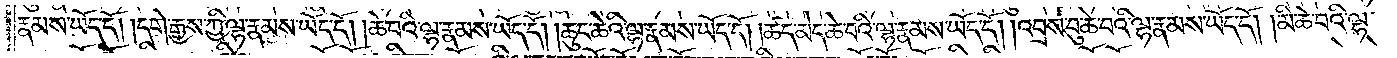རྣམས་ཡོད་དོ། །དགེ་རྒྱས་ཀྱི་ལྷ་རྣམས་ཡོད་དོ། །ཆེ་བའི་ལྷ་རྣམས་ཡོད་དོ། །ཆུང་ཆེའི་ལྷ་རྣམས་ཡོད་དོ། །ཚད་མེད་ཆེ་བའི་ལྷ་རྣམས་ཡོད་དོ། །འབྲས་བུ་ཆེ་བའི་ལྷ་རྣམས་ཡོད་དོ། །མི་ཆེ་བའི་ལྷ་
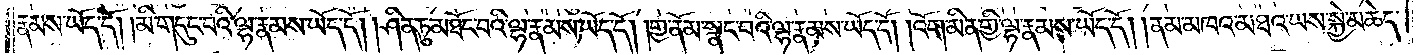རྣམས་ཡོད་དོ། །མི་གདུང་བའི་ལྷ་རྣམས་ཡོད་དོ། །ཤིན་ཏུ་མཐོང་བའི་ལྷ་རྣམས་ཡོད་དོ། །གྱ་ནོམ་སྣང་བའི་ལྷ་རྣམས་ཡོད་དོ། །འོག་མིན་གྱི་ལྷ་རྣམས་ཡོད་དོ། །ནམ་མཁའ་མཐའ་ཡས་སྐྱེ་མཆེད་
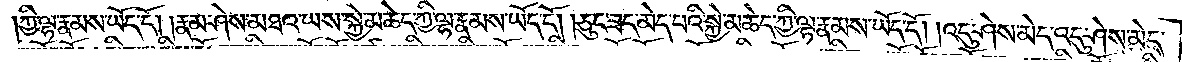ཀྱི་ལྷ་རྣམས་ཡོད་དོ། །རྣམ་ཤེས་མཐའ་ཡས་སྐྱེ་མཆེད་ཀྱི་ལྷ་རྣམས་ཡོད་དོ། །ཅུང་ཟད་མེད་པའི་སྐྱེ་མཆེད་ཀྱི་ལྷ་རྣམས་ཡོད་དོ། །འདུ་ཤེས་མེད་འདུ་ཤེས་མེད་
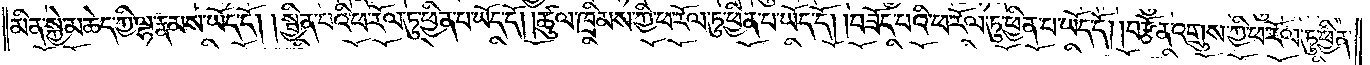མིན་སྐྱེ་མཆེད་ཀྱི་ལྷ་རྣམས་ཡོད་དོ། །སྦྱིན་པའི་ཕ་རོལ་ཏུ་ཕྱིན་པ་ཡོད་དོ། །ཚུལ་ཁྲིམས་ཀྱི་ཕ་རོལ་ཏུ་ཕྱིན་པ་ཡོད་དོ། །བཟོད་པའི་ཕ་རོལ་ཏུ་ཕྱིན་པ་ཡོད་དོ། །བརྩོན་འགྲུས་ཀྱི་ཕ་རོལ་ཏུ་ཕྱིན་
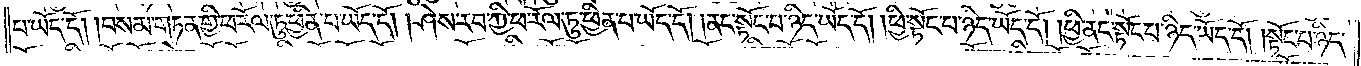པ་ཡོད་དོ། །བསམ་གཏན་གྱི་ཕ་རོལ་ཏུ་ཕྱིན་པ་ཡོད་དོ། །ཤེས་རབ་ཀྱི་ཕ་རོལ་ཏུ་ཕྱིན་པ་ཡོད་དོ། །ནང་སྟོང་པ་ཉིད་ཡོད་དོ། །ཕྱི་སྟོང་པ་ཉིད་ཡོད་དོ། །ཕྱི་ནང་སྟོང་པ་ཉིད་ཡོད་དོ། །སྟོང་པ་ཉིད་
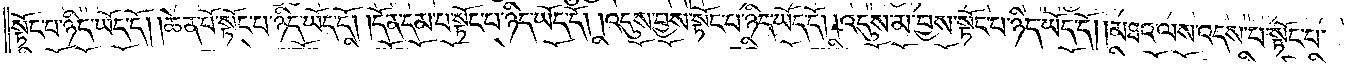སྟོང་པ་ཉིད་ཡོད་དོ། །ཆེན་པོ་སྟོང་པ་ཉིད་ཡོད་དོ། །དོན་དམ་པ་སྟོང་པ་ཉིད་ཡོད་དོ། །འདུས་བྱས་སྟོང་པ་ཉིད་ཡོད་དོ། །འདུས་མ་བྱས་སྟོང་པ་ཉིད་ཡོད་དོ། །མཐའ་ལས་འདས་པ་སྟོང་པ་
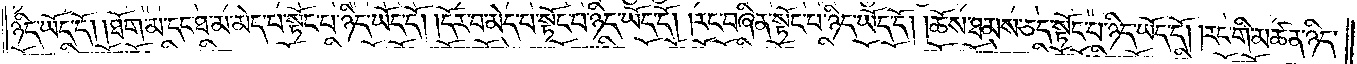ཉིད་ཡོད་དོ། །ཐོག་མ་དང་ཐ་མ་མེད་པ་སྟོང་པ་ཉིད་ཡོད་དོ། །དོར་བ་མེད་པ་སྟོང་པ་ཉིད་ཡོད་དོ། །རང་བཞིན་སྟོང་པ་ཉིད་ཡོད་དོ། །ཆོས་ཐམས་ཅད་སྟོང་པ་ཉིད་ཡོད་དོ། །རང་གི་མཚན་ཉིད་
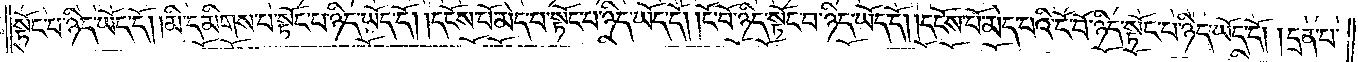སྟོང་པ་ཉིད་ཡོད་དོ། །མི་དམིགས་པ་སྟོང་པ་ཉིད་ཡོད་དོ། །དངོས་པོ་མེད་པ་སྟོང་པ་ཉིད་ཡོད་དོ། །ངོ་བོ་ཉིད་སྟོང་པ་ཉིད་ཡོད་དོ། །དངོས་པོ་མེད་པའི་ངོ་བོ་ཉིད་སྟོང་པ་ཉིད་ཡོད་དོ། །དྲན་པ་
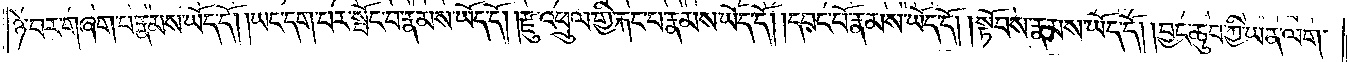ཉེ་བར་གཞག་པ་རྣམས་ཡོད་དོ༎ ཡང་དག་པར་སྤོང་བ་རྣམས་ཡོད་དོ། །རྫུ་འཕྲུལ་གྱི་རྐང་པ་རྣམས་ཡོད་དོ། །དབང་པོ་རྣམས་ཡོད་དོ། །སྟོབས་རྣམས་ཡོད་དོ། །བྱང་ཆུབ་ཀྱི་ཡན་ལག་
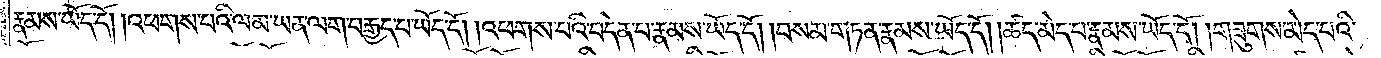རྣམས་ཡོད་དོ། །འཕགས་པའི་ལམ་ཡན་ལག་བརྒྱད་པ་ཡོད་དོ། །འཕགས་པའི་བདེན་པ་རྣམས་ཡོད་དོ། །བསམ་གཏན་རྣམས་ཡོད་དོ། །ཚད་མེད་པ་རྣམས་ཡོད་དོ། །གཟུགས་མེད་པའི་
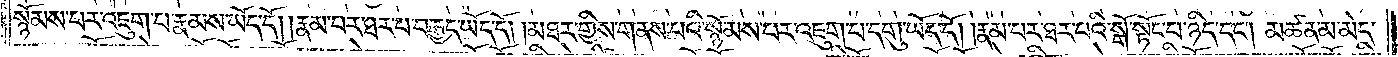སྙོམས་པར་འཇུག་པ་རྣམས་ཡོད་དོ། །རྣམ་པར་ཐར་པ་བརྒྱད་ཡོད་དོ། །མཐར་གྱིས་གནས་པའི་སྙོམས་པར་འཇུག་པ་དགུ་ཡོད་དོ། །རྣམ་པར་ཐར་པའི་སྒོ་སྟོང་པ་ཉིད་དང༌། མཚན་མ་མེད་
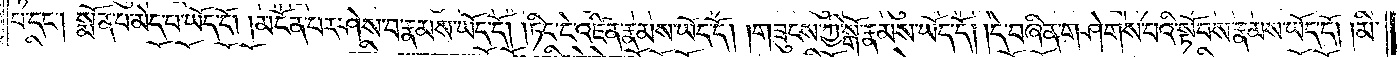པ་དང༌། སྨོན་པ་མེད་པ་ཡོད་དོ། །མངོན་པར་ཤེས་པ་རྣམས་ཡོད་དོ། །ཏིང་ངེ་འཛིན་རྣམས་ཡོད་དོ། །གཟུངས་ཀྱི་སྒོ་རྣམས་ཡོད་དོ། །དེ་བཞིན་གཤེགས་པའི་སྟོབས་རྣམས་ཡོད་དོ། །མི་
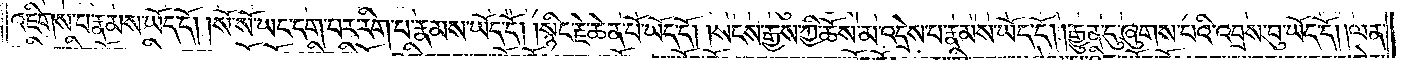འཇིགས་པ་རྣམས་ཡོད་དོ། །སོ་སོ་ཡང་དག་པར་རིག་པ་རྣམས་ཡོད་དོ། །སྙིང་རྗེ་ཆེན་པོ་ཡོད་དོ། །སངས་རྒྱས་ཀྱི་ཆོས་མ་འདྲེས་པ་རྣམས་ཡོད་དོ། །རྒྱུན་དུ་ཞུགས་པའི་འབྲས་བུ་ཡོད་དོ། །ལན་
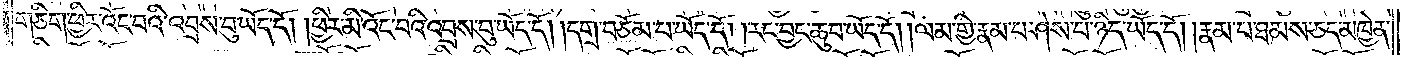གཅིག་ཕྱིར་འོང་བའི་འབྲས་བུ་ཡོད་དོ། །ཕྱིར་མི་འོང་བའི་འབྲས་བུ་ཡོད་དོ། །དགྲ་བཅོམ་པ་ཡོད་དོ། །རང་བྱང་ཆུབ་ཡོད་དོ། །ལམ་གྱི་རྣམ་པ་ཤེས་པ་ཉིད་ཡོད་དོ། །རྣམ་པ་ཐམས་ཅད་མཁྱེན་
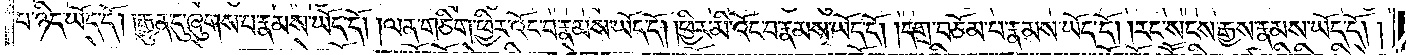པ་ཉིད་ཡོད་དོ། །རྒྱུན་དུ་ཞུགས་པ་རྣམས་ཡོད་དོ། །ལན་གཅིག་ཕྱིར་འོང་པ་རྣམས་ཡོད་དོ། །ཕྱིར་མི་འོང་བ་རྣམས་ཡོད་དོ། །དགྲ་བཅོམ་པ་རྣམས་ཡོད་དོ། །རང་སངས་རྒྱས་རྣམས་ཡོད་དོ། །
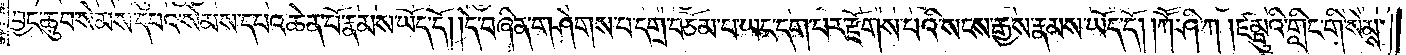བྱང་ཆུབ་སེམས་དཔའ་སེམས་དཔའ་ཆེན་པོ་རྣམས་ཡོད་དོ། །དེ་བཞིན་གཤེགས་པ་དགྲ་བཅོམ་པ་ཡང་དག་པར་རྫོགས་པའི་སངས་རྒྱས་རྣམས་ཡོད་དོ། །ཀཽ་ཤི་ཀ །ཛམྦུའི་གླིང་གི་སེམས་
